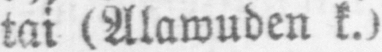tai (Alawuden k.)
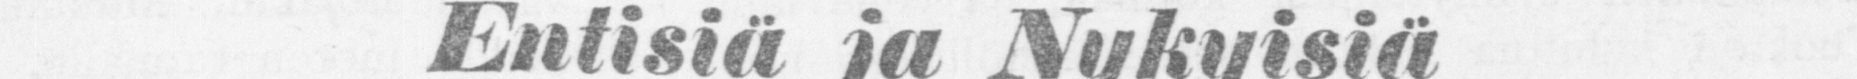Entisiä ja Nykyisiä
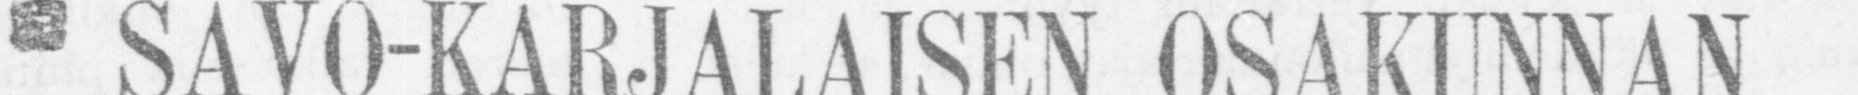SAVO-KARJALAISEN OSAKUNNAN
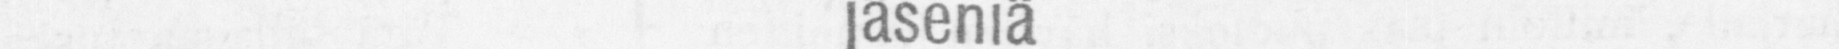jäseniä
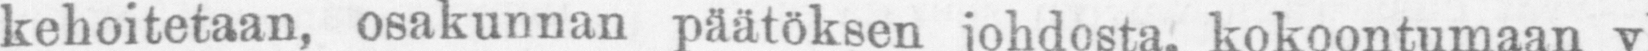kehoitetaan, osakunnan päätöksen johdosta, kokoontumaan yhteiseen
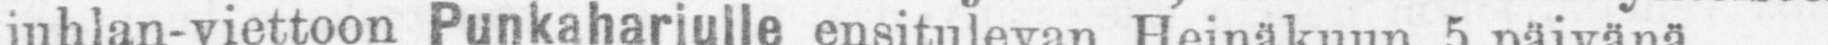juhlan-veitton Punkaharjulle ensituleven Heinäkunn 5 päivänä.
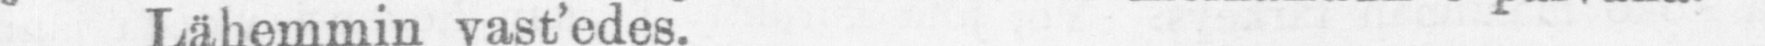Lähemmin vast'edes.
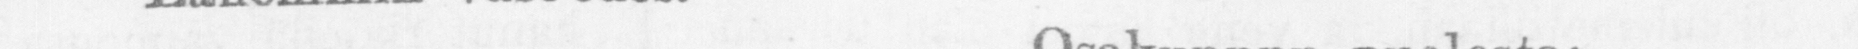Osakunnnn puolesta:
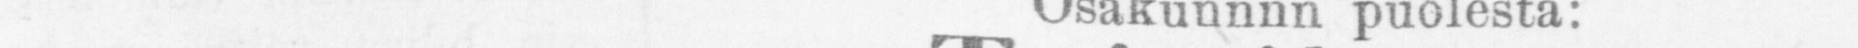Toimikunta.
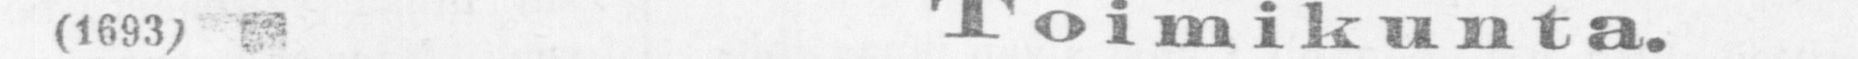(1693)
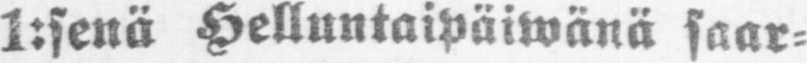1:senä Helluntaipäiwänä saar-
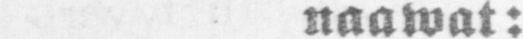naawat:
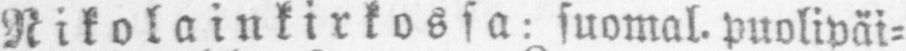Nikolainkirkossa: suomal. puolipäi-
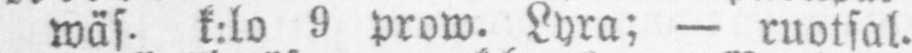wäs. k:lo 9 prow. Lyra; — ruotsal.
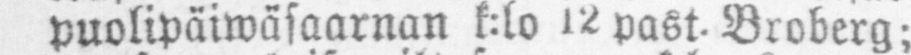puolipäiwäsaarnan k:lo 12 past-Broberg;
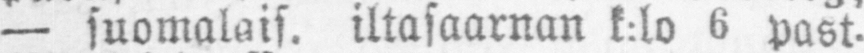— suomalais, iltasaarnan k:lo 6 past.
